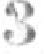3
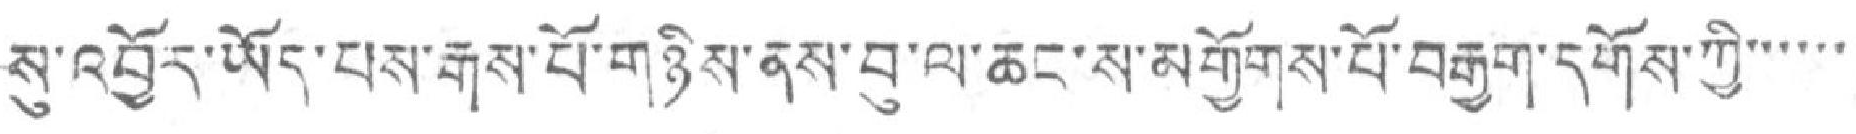སུ་འབྱོར་ཡོད་པས་རྒས་པོ་གཉིས་ནས་བུ་ལ་ཆང་ས་མགྱོགས་པོ་བརྒྱག་དགོས་ཀྱི་་་་་་
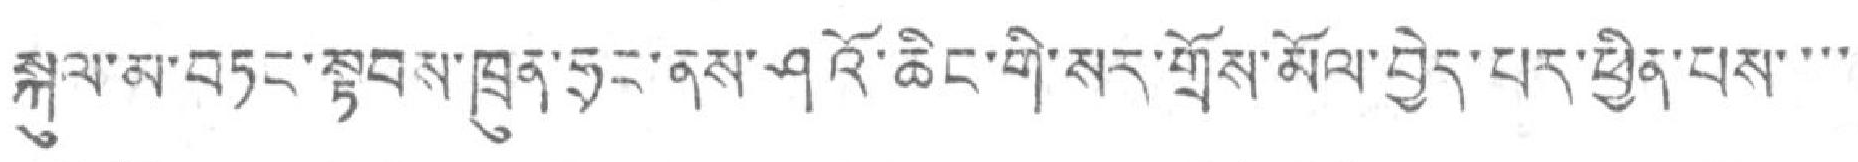སྐུལ་མ་བཏང་སྟབས་ཁྲུན་ཧྲང་ནས་ཤའོ་ཆིང་གི་སར་གྲོས་མོལ་བྱེད་པར་ཕྱིན་པས་་་་
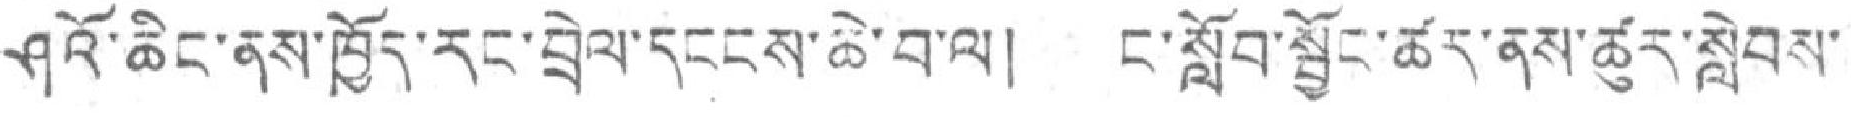ཤའོ་ཆིང་ནས་ཁྱོད་རང་བྲེལ་དངངས་ཆེ་བ་ལ། ང་སློབ་སྦྱོར་ཚར་ནས་ཚུར་སླེབས་
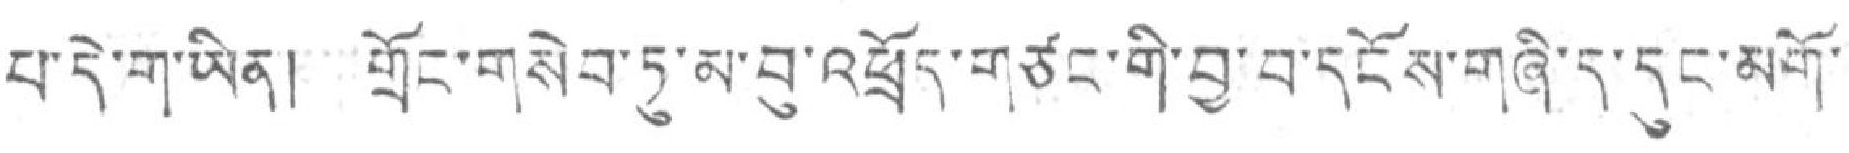པ་དེ་ག་ཡིན། གྲོང་གསེབ་ཏུ་མ་བུ་འཕྲོད་གཙང་གི་བྱ་བ་དངོས་གཞི་ད་དུང་མགོ་
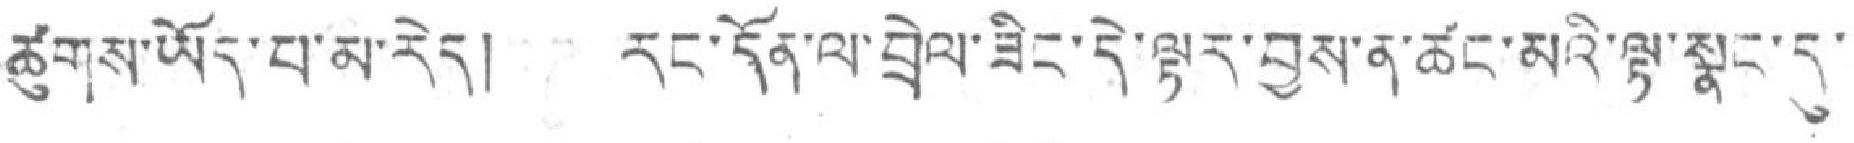ཚུགས་ཡོད་པ་མ་རེད། རང་དོན་ལ་བྲེལ་ཟིང་དེ་ལྟར་བྱས་ན་ཚང་མའི་ལྟ་སྣང་དུ་
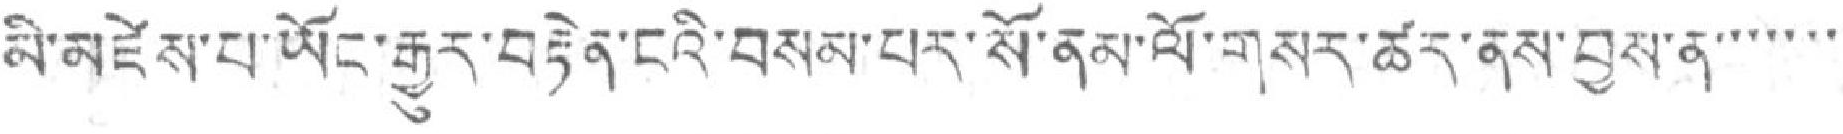མི་མཛེས་པ་ཡོང་རྒྱུར་བརྟེན་ངའི་བསམ་པར་སོ་ནམ་ལོ་གསར་ཚར་ནས་བྱས་ན་་་་་་་
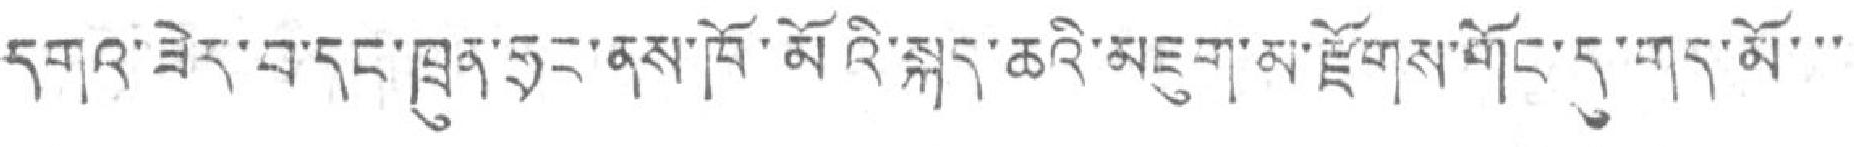དགའ་ཟེར་བ་དང་ཁྲུན་ཧྲང་ནས་ཁོ་མོའི་སྐད་ཆའི་མཇུག་མ་རྫོགས་གོང་དུ་གད་མོ་་་
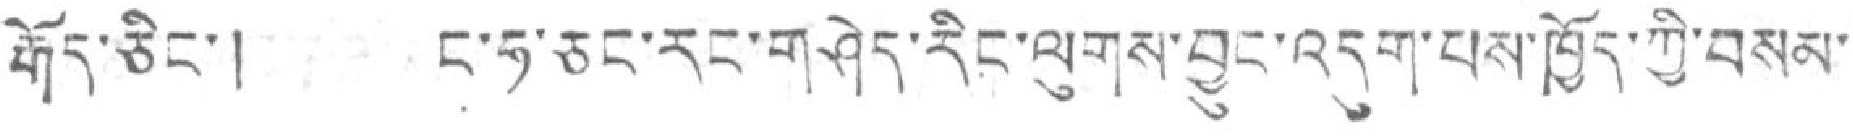རྒོད་ཅིང་། ང་ཧ་ཅང་རང་གཤེད་རིང་ལུགས་བྱུང་འདུག་པས་ཁྱོད་ཀྱི་བསམ་
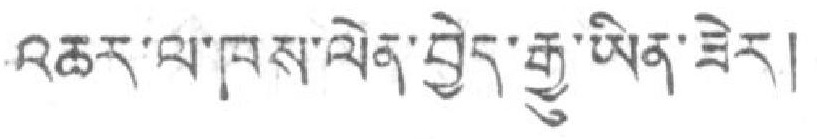འཆར་ལ་ཁས་ལེན་བྱེད་རྒྱུ་ཡིན་ཟེར།
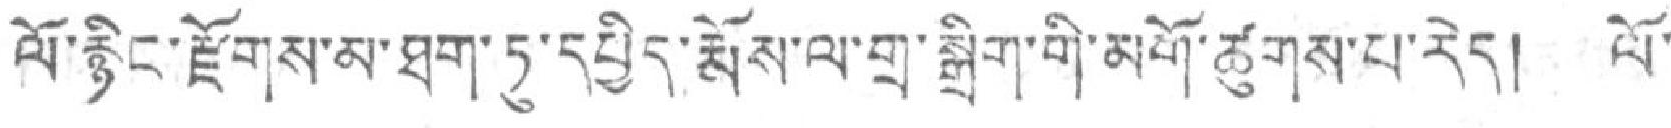ལོ་རྙིང་རྫོགས་མ་ཐག་ཏུ་དཔྱིད་རྨོས་ལ་གྲ་སྒྲིག་གི་མགོ་ཚུགས་པ་རེད། ལོ་
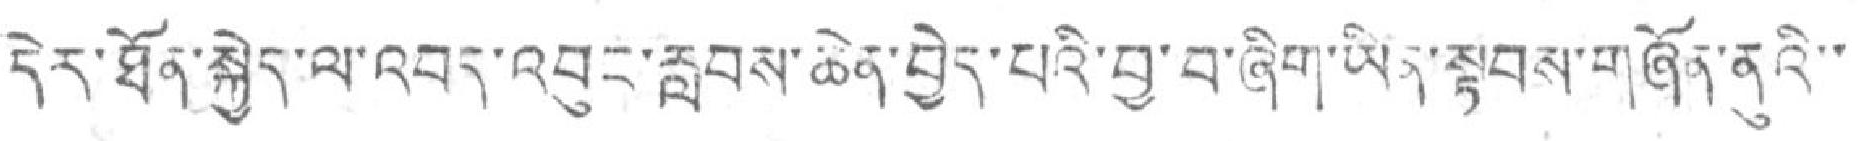དེར་ཐོན་སྐྱེད་ལ་འབད་འབུང་རླབས་ཆེན་བྱེད་པའི་བྱ་བ་ཞིག་ཡིན་སྟབས་གཞོན་ནུའི་་
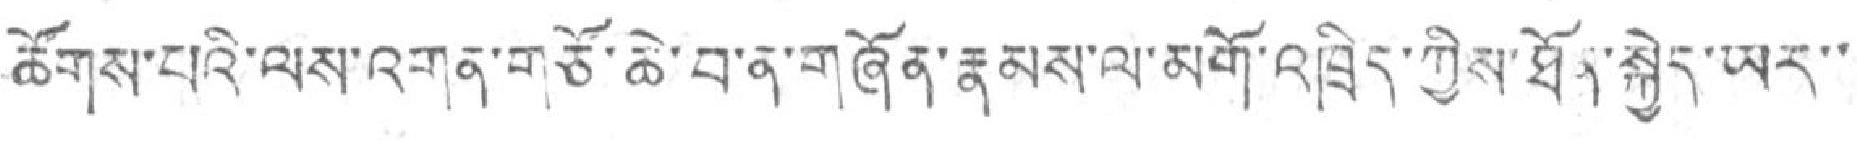ཚོགས་པའི་ལས་འགན་གཙོ་ཆེ་བ་ན་གཞོན་རྣམས་ལ་མགོ་འཁྲིད་ཀྱིས་ཐོན་སྐྱེད་ཡར་་
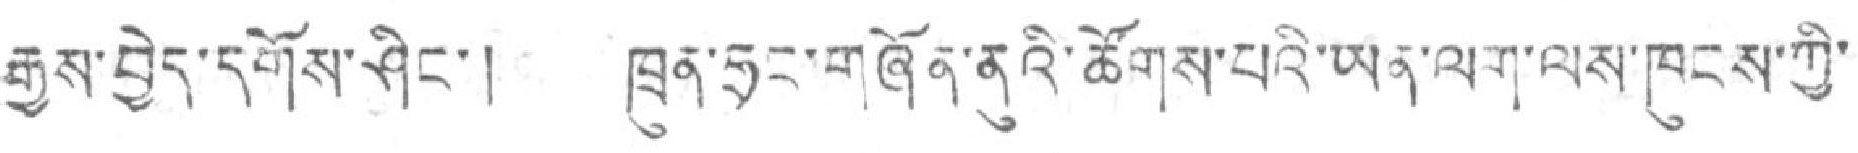རྒྱས་བྱེད་དགོས་ཤིང་། ཁྲུན་ཧྲང་གཞོན་ནུའི་ཚོགས་པའི་ཡན་ལག་ལས་ཁུངས་ཀྱི་
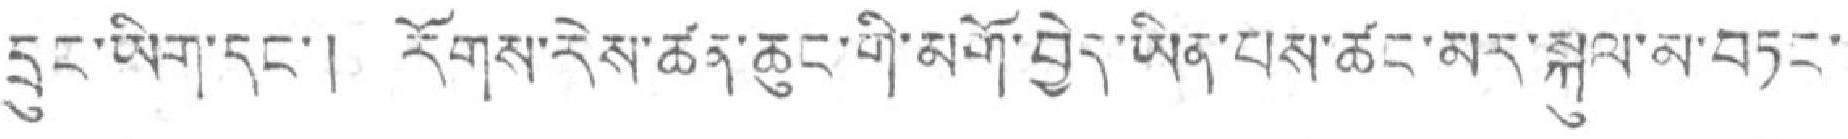དྲུང་ཡིག་དང་། རོགས་རེས་ཚན་ཆུང་གི་མགོ་བྱེད་ཡིན་པས་ཚང་མར་སྐུལ་མ་བཏང་།
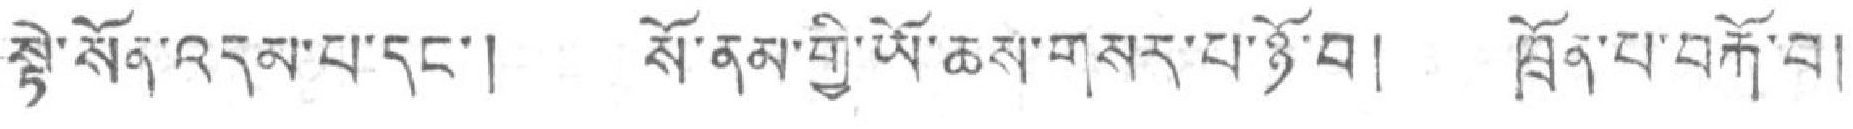སྟེ་སོན་འདམ་པ་དང་། སོ་ནམ་གྱི་ཡོ་ཆས་གསར་པ་ཉོ་བ། ཁྲོན་པ་བཀོ་བ།
